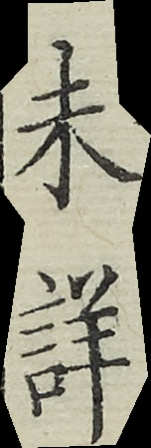未詳
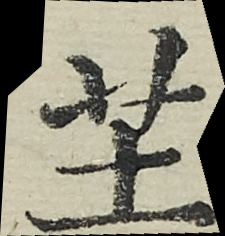芏
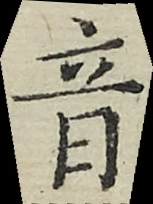音
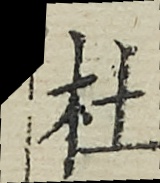杜
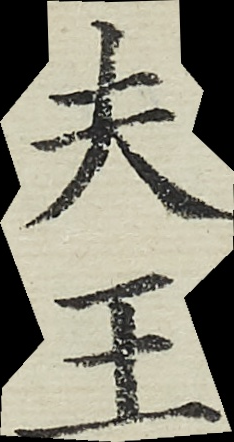夫王
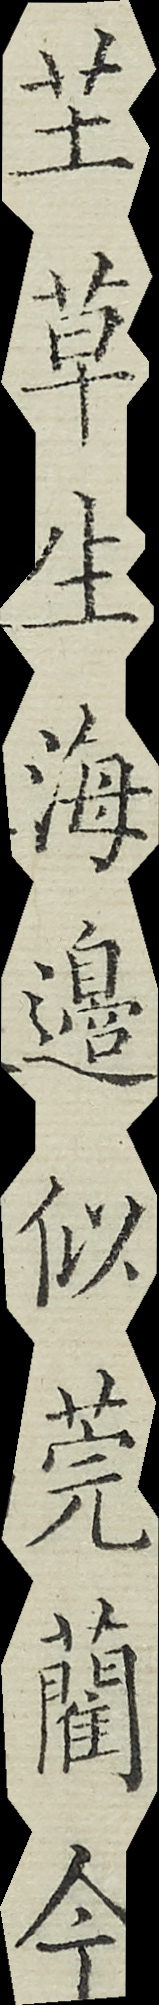芏草生海邊似莞藺今
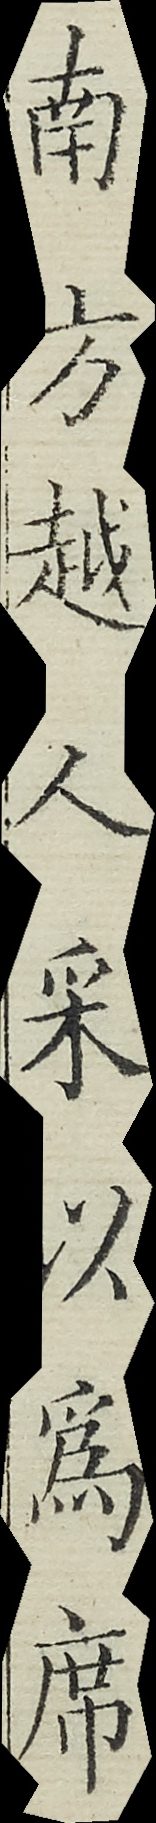南方越人采以爲席
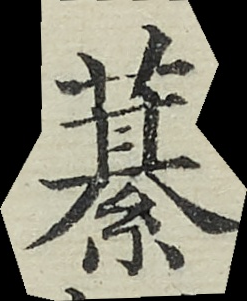藄
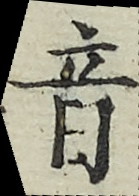音
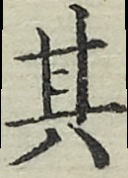其
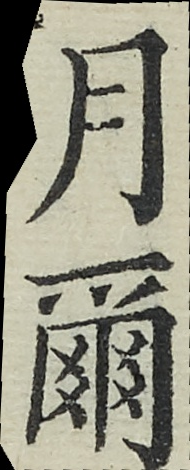月爾
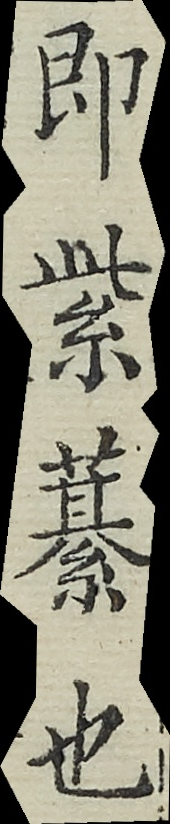即紫綦也
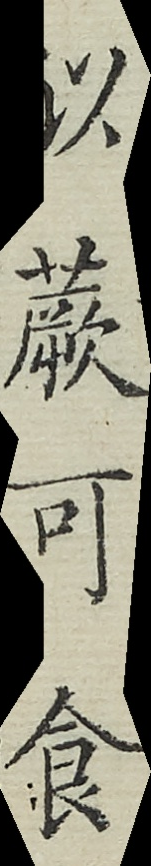似蕨可食
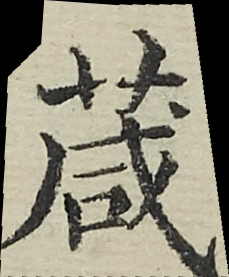葴
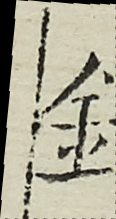針
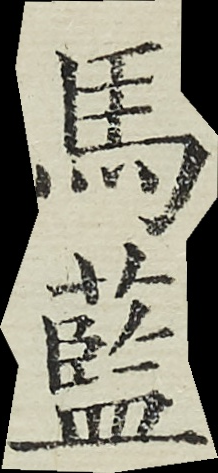馬藍
